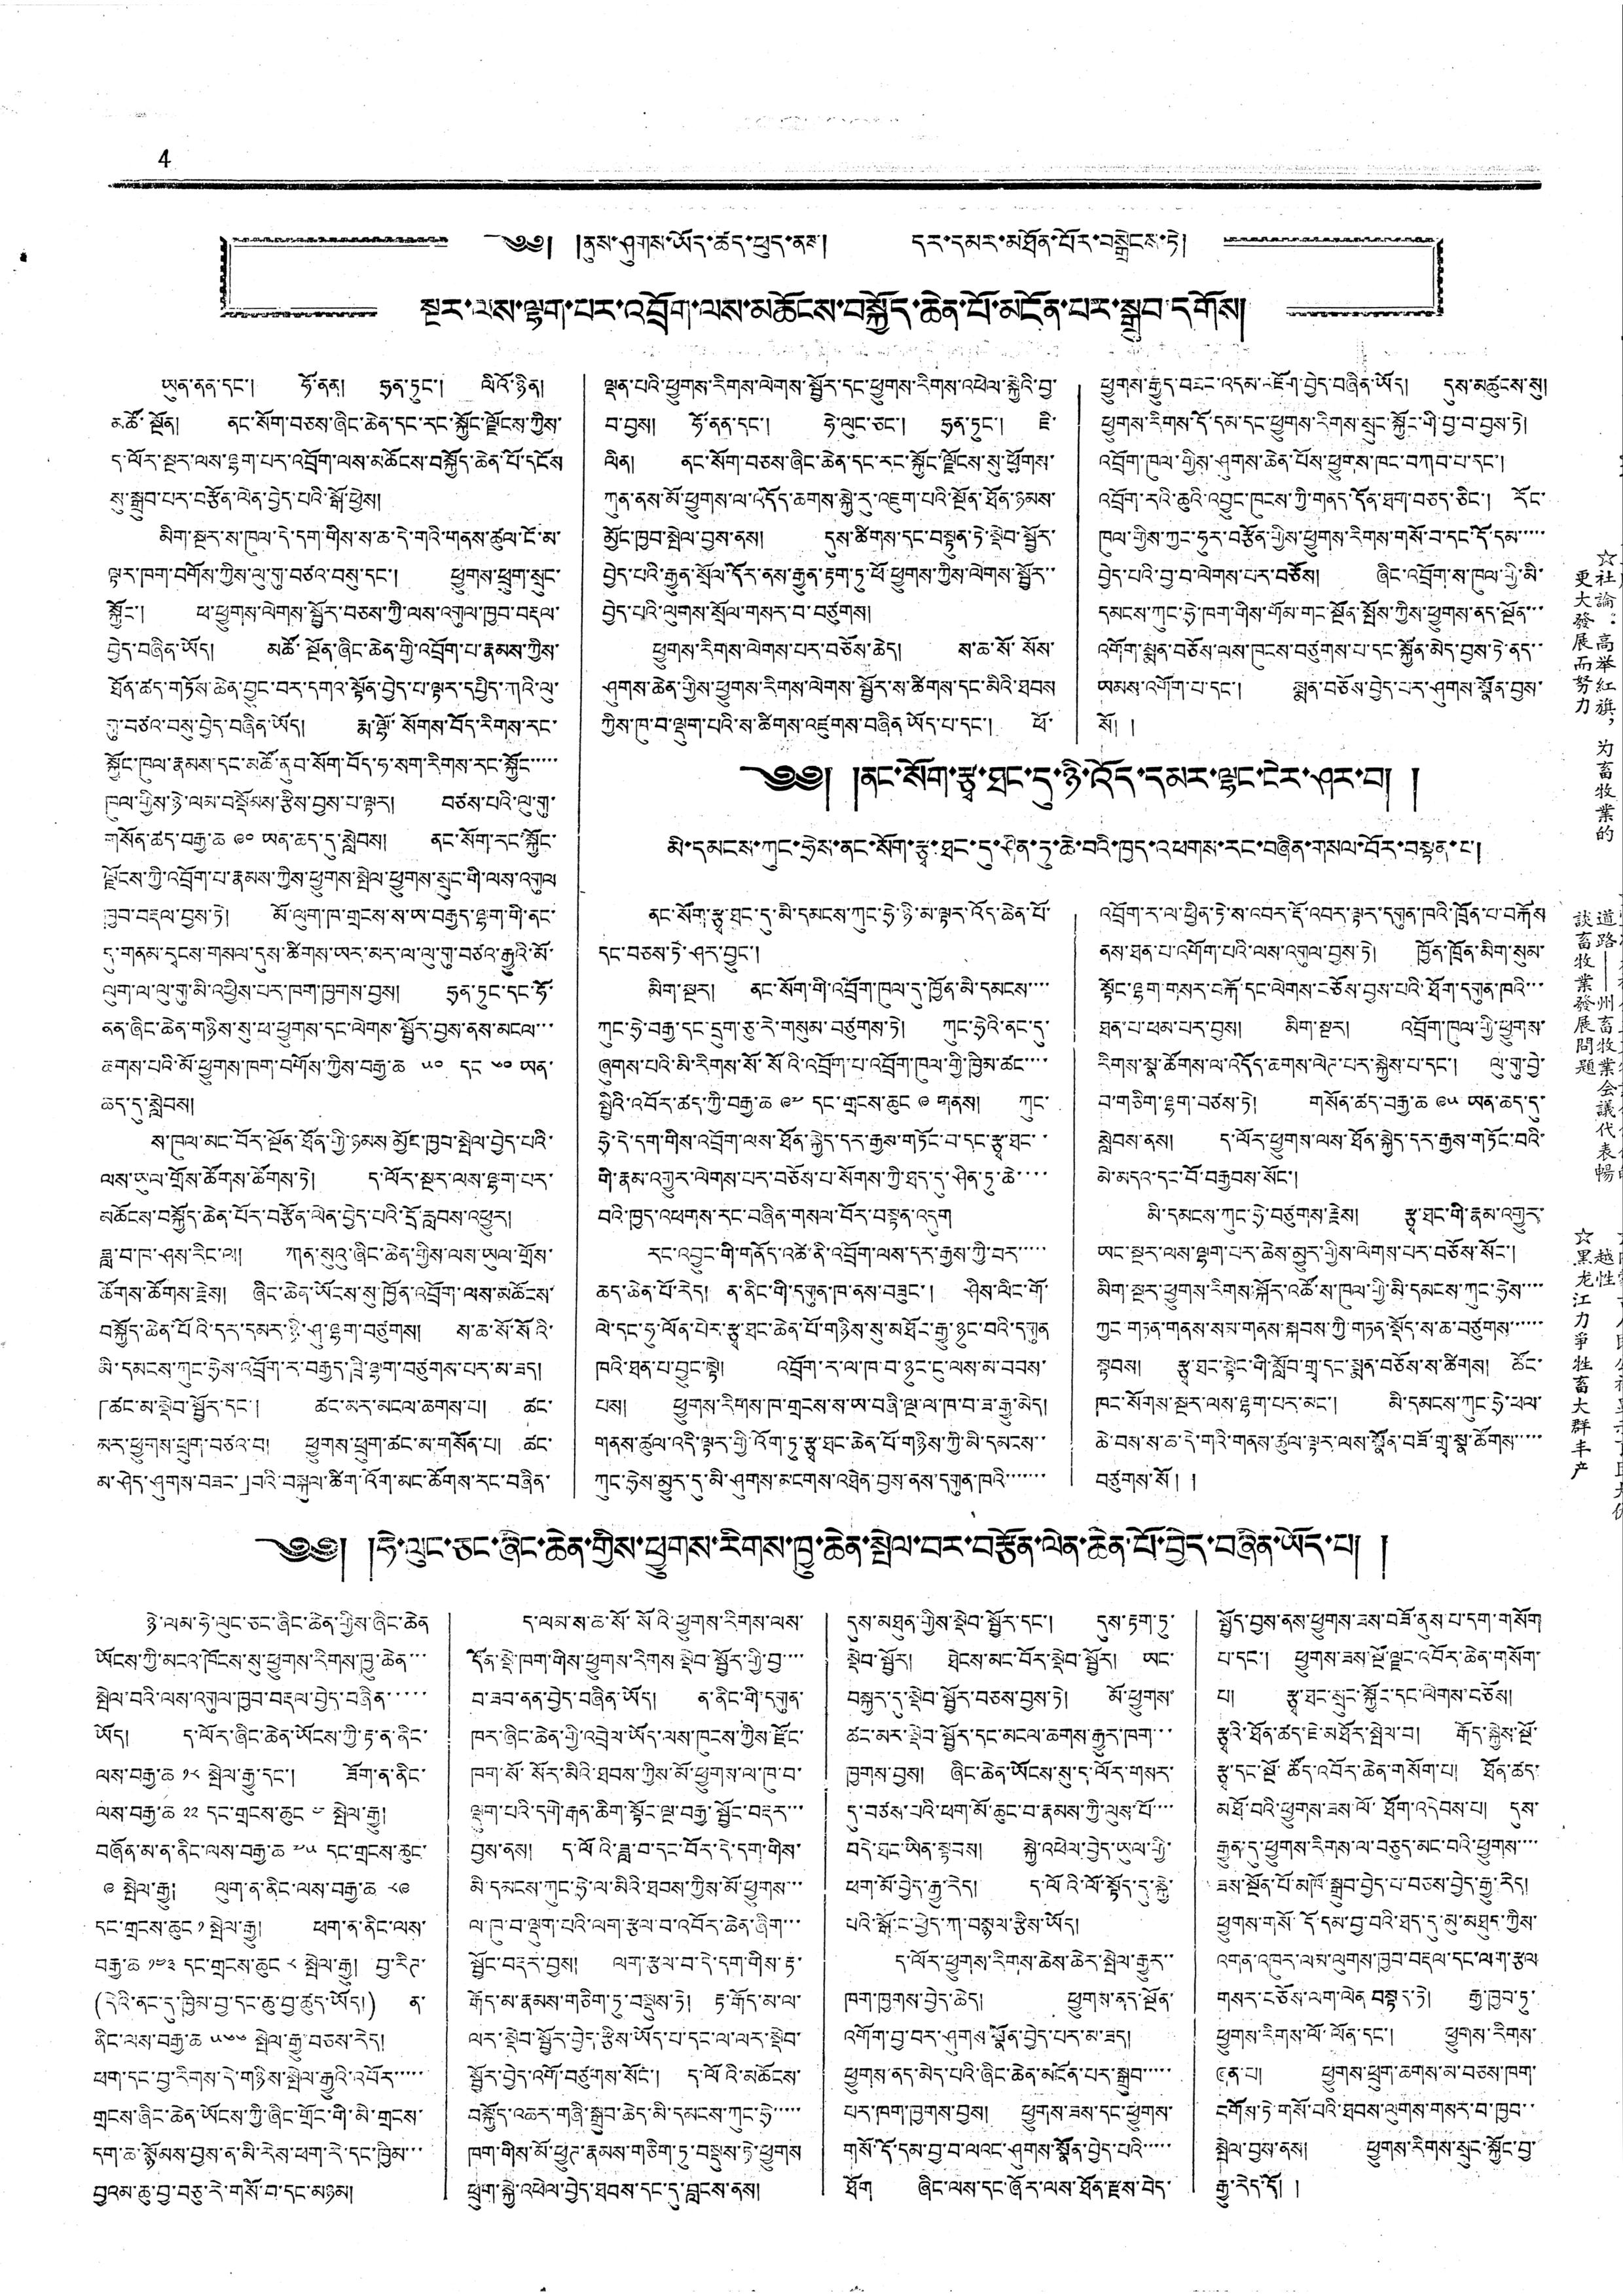4
༄༅། །ནུས་ཤུགས་ཡོད་ཚད་ཕུད་ནས། དར་དམར་མཐོན་པོར་བསྒྲེངས་ཏེ།
སྔར་ལས་ལྷག་པར་འབྲོག་ལས་མཆོངས་བསྐྱོད་ཆེན་པོ་མངོན་པར་སྒྲུབ་དགོས།
ཡུན་ནན་དང་། ཧོ་ནན། ཧྲན་ཏུང་། ལིའོ་ཉིན།
མཚོ་སྔོན། ནང་སོག་བཅས་ཞིང་ཆེན་དང་རང་སྐྱོང་ལྗོངས་ཀྱིས་
ད་ལོར་སྔར་ལས་ལྷག་པར་འབྲོག་ལས་མཆོངས་བསྐྱོད་ཆེན་པོ་དངོས
སུ་སྒྲུབ་པར་བརྩོན་ལེན་བྱེད་པའི་སྒོ་ཕྱེས།
མིག་སྔར་ས་ཁུལ་དེ་དག་གིས་ས་ཆ་དེ་གའི་གནས་ཚུལ་ངོ་མ་
ལྟར་ཁག་བགོས་ཀྱིས་ལུ་གུ་བཙའ་བསུ་དང་། ཕྱུགས་ཕྲུག་སྲུང་
སྐྱོང་། ཕ་ཕྱུགས་ལེགས་སྦྱོར་བཅས་ཀྱི་ལས་འགུལ་ཁྱབ་བརྡལ་
བྱེད་བཞིན་ཡོད། མཚོ་སྔོན་ཞིང་ཆེན་གྱི་འབྲོག་པ་རྣམས་ཀྱིས་
ཐོན་ཚད་གཏོས་ཆེན་བྱུང་བར་དགའ་སྟོན་བྱེད་པ་ལྟར་དཔྱིད་ཀའི་ལུ་
ཀུ་བཙའ་བསུ་བྱེད་བཞིན་ཡོད། རྨ་ལྷོ་སོགས་བོད་རིགས་རང་
སྐྱོང་ཁུལ་རྣམས་དང་མཚོ་ནུབ་སོག་བོད་ཧ་སག་རིགས་རང་སྐྱོང་་་་་
ཁུལ་གྱིས་ཉེ་ལམ་བསྡོམས་རྩིས་བྱས་པ་ལྟར། བཙས་པའི་ལུ་གུ་
གསོན་ཚད་བརྒྱ་ཆ ༩༠ ཡན་ཆད་དུ་སླེབས། ནང་སོགས་རང་སྐྱོང་
ལྗོངས་ཀྱི་འབྲོག་པ་རྣམས་ཀྱིས་ཕྱུགས་སྤེལ་ཕྱུགས་སྲུང་གི་ལས་འགུལ
ཁྱབ་བརྡལ་བྱས་ཏེ། མོ་ལུག་ཁ་གྲངས་ས་ཡ་བརྒྱད་ལྷག་གི་ནང་
དུ་གནས་དྭངས་གསལ་དུས་ཚིགས་ཡར་མར་ལ་ལུ་གུ་བཙའ་རྒྱུའི་མོ་
ལུག་ལ་ལུ་གུ་མི་འཕྱིས་པར་ཁག་ཁྱགས་བྱས། ཧྲན་ཏུང་དང་ཧོ་
ནན་ཞིང་ཆེན་གཉིས་སུ་ཕ་ཕྱུགས་དང་ལེགས་སྦྱོར་བྱས་ནས་མངལ་་་
ཆགས་པའི་མོ་ཕྱུགས་ཁག་བགོས་ཀྱིས་བརྒྱ་ཆ ༥༠ དང ༦༠ ཡན་
ཆད་དུ་སླེབས།
ས་ཁུལ་མང་བོར་སྔོན་ཐོན་གྱི་ཉམས་མྱོང་ཁྱབ་སྤེལ་བྱེད་པའི་
ལས་ཡུལ་གྲོས་ཚོགས་ཚོགས་ཏེ། ད་ལོར་སྔར་ལས་ལྷག་པར་
མཆོངས་བསྐྱོད་ཆེན་པོར་བརྩོན་ལེན་བྱེད་པའི་དྲོ་རླབས་འཕྱུར།
ཟླ་བ་ཁ་ཤས་རིང་ལ། ཀན་སུའུ་ཞིང་ཆེན་གྱིས་ལས་ཡུལ་གྲོས་
ཚོགས་ཚོགས་རྗེས། ཞིང་ཆེན་ཡོངས་སུ་ཁྱོན་འབྲོག་ལས་མཆོངས་
བསྐྱོད་ཆེན་པོའི་དར་དམར་ཉི་ཤུ་ལྷག་བཙུགས། ས་ཆ་སོ་སོའི་
མི་དམངས་ཀུང་ཧྲེས་འབྲོག་ར་བརྒྱད་ཁྲི་ལྷག་བཙུགས་པར་མ་ཟད།
「ཚང་མ་སྡེབ་སྦྱོར་དང་། ཚང་མར་མངལ་ཆགས་པ། ཚང་
མར་ཕྱུགས་ཕྲུག་བཙའ་བ། ཕྱུགས་ཕྲུག་ཚང་མ་གསོན་པ། ཚང་
མ་ཤེད་ཤུགས་བཟང་」བའི་བསྐུལ་ཚིག་འོག་མང་ཚོགས་རང་བཞིན་
ལྡན་པའི་ཕྱུགས་རིགས་ལེགས་སྦྱོར་དང་ཕྱུགས་རིགས་འཕེལ་སྐྱེའི་བྱ་
བ་བྱས། ཧོ་ནན་དང་། ཧེ་ལུང་ཅང་། ཧྲན་ཏུང་། ཇི་
ལིན། ནང་སོགས་བཅས་ཞིང་ཆེན་དང་རང་སྐྱོང་ལྗོངས་སུ་ཕྱུགས་
ཀུན་ནས་མོ་ཕྱུགས་ལ་འདོད་ཆགས་སྐྱེ་རུ་འཇུག་པའི་སྔོན་ཐོན་ཉམས་
མྱོང་ཁྱབ་སྤེལ་བྱས་ནས། དུས་ཚིགས་དང་བསྟུན་ཏེ་སྡེབ་སྦྱོར་
བྱེད་པའི་རྒྱུན་སྲོལ་དོར་ནས་རྒྱུན་རྟག་ཏུ་ཕོ་ཕྱུགས་ཀྱིས་ལེགས་སྦྱོར་་
བྱེད་པའི་ལུགས་སྲོལ་གསར་བ་བཙུགས།
ཕྱུགས་རིགས་ལེགས་པར་བཅོས་ཆེད། ས་ཆ་སོ་སོས་
ཤུགས་ཆེན་གྱིས་ཕྱུགས་རིགས་ལེགས་སྦྱོར་ས་ཚིགས་དང་མིའི་ཐབས
ཀྱིས་ཁུ་བ་ལྡུག་པའི་ས་ཚིགས་འཛུགས་བཞིན ཡོད་པ་དང་། ཕོ་
ཕྱུགས་རྒྱུད་བཟང་འདམ་འཇོག་བྱེད་བཞིན་ཡོད། དུས་མཚུངས་སུ།
ཕྱུགས་རིགས་དོ་དམ་དང་ཕྱུགས་རིགས་སྲུང་སྐྱོང་གི་བྱ་བ་བྱས་ཏེ།
འབྲོག་ཁུལ་གྱིས་ཤུགས་ཆེན་པོས་ཕྱུགས་ཁང་བཀབ་པ་དང་།
འབྲོག་རའི་ཆུའི་འབྱུང་ཁུངས་ཀྱི་གནད་དོན་ཐག་བཅད་ཅིང་། རོང་
ཁུལ་གྱིས་ཀྱང་ཧུར་བརྩོན་གྱིས་ཕྱུགས་རིགས་གསོ་བ་དང་དོ་དམ་་་་་
བྱེད་པའི་བྱ་བ་ལེགས་པར་བཅོས། ཞིང་འབྲོག་ས་ཁུལ་གྱི་མི་
དམངས་ཀུང་ཧྲེ་ཁག་གིས་གོམ་གང་སྔོན་སྤོས་ཀྱིས་ཕྱུགས་ནད་སྔོན་་་
འགོག་སྨན་བཅོས་ལས་ཁུངས་བཙུགས་པ་དང་སྐྱོན་མེད་བྱས་ཏེ་ནད་་
ཡམས་འགོག་པ་དང་། སྨན་བཅོས་བྱེད་པར་ཤུགས་སྣོན་བྱས་
སོ། །
༄༅། །ནང་སོག་རྩྭ་ཐང་དུ་ཉི་འོད་དམར་ལྷང་ངེར་ཤར་བ། །
མི་དམངས་ཀུང་ཧྲེས་ནང་སོག་རྩྭ་ཐང་དུ་ཤིན་ཏུ་ཆེ་བའི་ཁྱད་འཕགས་རང་བཞིན་གསལ་བོར་བསྟན་པ།
ནང་སོག་རྩྭ་ཐང་དུ་མི་དམངས་ཀུང་ཧྲེ་ཉི་མ་ལྟར་འོད་ཆེན་པོ་
དང་བཅས་ཏེ་ཤར་བྱུང་།
མིག་སྔར། ནང་སོག་གི་འབྲོག་ཁུལ་དུ་ཁྱོན་མི་དམངས་་་་
ཀུང་ཧྲེ་བརྒྱ་དང་དྲུག་ཅུ་རེ་གསུམ་བཙུགས་ཏེ། ཀུང་ཧྲེའི་ནང་དུ་
ཞུགས་པའི་མི་རིགས་སོ་སོའི་འབྲོག་པ་འབྲོག་ཁུལ་གྱི་ཁྱིམ་ཚང་་་་
སྤྱིའི་འབོར་ཚད་ཀྱི་བརྒྱ་ཆ ༩༧ དང་གྲངས་ཆུང ༩ གནས། ཀུང་
ཧྲེ་དེ་དག་གིས་འབྲོག་ལས་ཐོན་སྐྱེད་དར་རྒྱས་གཏོང་བ་དང་རྩྭ་ཐང་་
གི་རྣམ་འགྱུར་ལེགས་པར་བཅོས་པ་སོགས་ཀྱི་ཐད་དུ་ཤིན་ཏུ་ཆེ་་་་
བའི་ཁྱད་འཕགས་རང་བཞིན་གསལ་བོར་བསྟན་འདུག
རང་འབྱུང་གི་གནོད་འཚེ་ནི་འབྲོག་ལས་དར་རྒྱས་ཀྱི་བར་་་་་
ཆད་ཆེན་པོ་རེད། ན་ནིང་གི་དགུན་ཁ་ནས་བཟུང་། ཤིས་ལིང་གོ་
ལེ་དང་ཧུ་ལོན་པེར་རྩྭ་ཐང་ཆེན་པོ་གཉིས་སུ་མཐོང་རྒྱུ་ཉུང་བའི་དགུན
ཁའི་ཐན་པ་བྱུང་སྟེ། འབྲོག་ར་ལ་ཁ་བ་ཉུང་ངུ་ལས་མ་བབས་
པས། ཕྱུགས་རིགས་ཁ་གྲངས་ས་ཡ་བཞི་ལྔ་ལ་ཁ་བ་ཟ་རྒྱུ་མེད།
གནས་ཚུལ་འདི་ལྟར་གྱི་འོག་ཏུ་རྩྭ་ཐང་ཆེན་པོ་གཉིས་ཀྱི་མི་དམངས་་
ཀུང་ཧྲེས་མྱུར་དུ་མི་ཤུགས་མངགས་འཐེན་བྱས་ནས་དགུན་ཁའི་་་་་་་
འབྲོག་ར་ལ་ཕྱིན་ཏེ་ས་འབར་རྡོ་འབར་ལྟར་དགུན་ཁའི་ཁྲོན་པ་བརྐོས
ནས་ཐན་པ་འགོག་པའི་ལས་འགུལ་བྱས་ཏེ། ཁྱོན་ཁྲོན་མིག་སུམ་
སྟོང་ལྷག་གསར་བརྐོ་དང་ལེགས་བཅོས་བྱས་པའི་ཐོག་དགུན་ཁའི་་་
ཐན་པ་ཕམ་པར་བྱས། མིག་སྔར། འབྲོག་ཁུལ་གྱི་ཕྱུགས་
རིགས་སྣ་ཚོགས་འདོད་ཆགས་ལེཊ་པར་སྐྱས་པ་དང་། ལུ་གུ་བྱེ་
བ་གཅིག་ལྷག་བཙས་ཏེ། གསོན་ཚད་བརྒྱ་ཆ ༩༥ ཡན་ཆད་དུ་
སླེབས་ནས། ད་ལོར་ཕྱུགས་ལས་ཐོན་སྐྱེད་དར་རྒྱས་གཏོང་བའི་
མེ་མདའ་དང་བོ་བརྒྱབས་སོང་།
མི་དམངས་ཀུང་ཧྲེ་བཙུགས་རྗེས། རྩྭ་ཐང་གི་རྣམ་འགྱུར་
ཡང་སྔར་ལས་ལྷག་པར་ཆེས་མྱུར་གྱིས་ལེགས་པར་བཅོས་སོང་།
མིག་སྔར་ཕྱུགས་རིགས་སྐོར་འཚོ་ས་ཁུལ་གྱི་མི་དམངས་ཀུང་ཧྲེས་་་་
ཀྱང་གཏན་གནས་སམ་གནས་སྐབས་ཀྱི་གཏན་སྡོད་ས་ཆ་བཙུགས་་་་་་
སྟབས། རྩྭ་ཐང་སྟེང་གི་སློབ་གྲྭ་དང་སྨན་བཅོས་ས་ཚིགས། ཚོང་
ཁང་སོགས་སྔར་ལས་ལྷག་པར་མང་། མི་དམངས་ཀུང་ཧྲེ་ཕལ་
ཆེ་བས་ས་ཆ་དེ་གའི་གནས་ཚུལ་ལྟར་ལས་སྣོན་བཟོ་གྲྭ་སྣ་ཚོགས་་་་་
བཙུགས་སོ། །
༄༅། །ཧེ་ལུང་ཅང་ཞིང་ཆེན་གྱིས་ཕྱུགས་རིསྒ་ཁྱུ་ཆེན་སྤེལ་བར་བརྩོན་ལེན་ཆེན་པོ་བྱེད་བཞིན་ཡོད་པ། །
ཉེ་ལམ་ཧེ་ལུང་ཅང་ཞིང་ཆེན་གྱིས་ཞིང་ཆེན
ཡོངས་ཀྱི་མངའ་ཁོངས་སུ་ཕྱུགས་རིགས་ཁྱུ་ཆེན་་་
སྤེལ་བའི་ལས་འགུལ་ཁྱབ་བརྡལ་བྱེད་བཞིན་་་་་
ཡོད། ད་ལོར་ཞིང་ཆེན་ཡོངས་ཀྱི་རྟ་ན་ནིང་
ལས་བརྒྱ་ཆ ༡༨ སྤེལ་རྒྱུ་དང་། ཟོག་ན་ནིང་
ལས་བརྒྱ་ཆ ༢༢ དང་གྲངས་ཆུང ༤ སྤེལ་རྒྱུ།
བཞོན་མ་ན་ནིང་ལས་བརྒྱ་ཆ ༧༥ དང་གྲངས་ཆུང་
༩ སྤེལ་རྒྱུ། ལུག་ན་ནིང་ལས་བརྒྱ་ཆ ༨༩
དང་གྲངས་ཆུང ༡ སྤེལ་རྒྱུ། ཕག་ན་ནིང་ལས་
བརྒྱ་ཆ ༡༤༣ དང་གྲངས་ཆུང ༨ སྤེལ་རྒྱུ། བྱ་རིཊ་
(དེའི་ནང་དུ་ཁྱིམ་བྱ་དང་ཆུ་བྱ་ཚུད་ཡོད།) ན་
ནིང་ལས་བརྒྱ་ཆ ༥༦༦ སྤེལ་རྒྱུ་བཅས་རེད།
ཕག་དང་བྱ་རིགས་དེ་གཉིས་སྤེལ་རྒྱུའི་འབོར་་་་་
གྲངས་ཞིང་ཆེན་ཡོངས་ཀྱི་ཞིང་གྲོང་གི་མི་གྲངས་
དག་ཆ་སྙོམས་བྱས་ན་མི་རེས་ཕག་རེ་དང་ཁྱིམ་་་
བྱའམ་ཆུ་བྱ་བཅུ་རེ་གསོ་བ་དང་མཉམ།
ད་ལམ་ས་ཆ་སོ་སོའི་ཕྱུགས་རིགས་ལས་
དོན་སྡེ་ཁག་གིས་ཕྱུགས་རིགས སྡེབ་སྦྱོར་གྱི་བྱ་་་་
བ་ཟབ་ནན་བྱེད་བཞིན་ཡོད། ན་ནིང་གི་དགུན་
ཁར་ཞིང་ཆེན་གྱི་འབྲེལ་ཡོད་ལས་ཁུངས་ཀྱིས་རྫོང་
ཁག་སོ་སོར་མིའི་ཐབས་ཀྱིས་མོ་ཕྱུགས་ལ་ཁུ་བ་
ལྡུག་པའི་དགེ་རྒན་ཆིག་སྟོང་ལྔ་བརྒྱ་སྦྱོང་བརྡར་་་
བྱས་ནས། ད་ལོའི་ཟླ་བ་དང་བོར་དེ་དག་གིས་
མི་དམངས་ཀུང་ཧྲེ་ལ་མིའི་ཐབས་ཀྱིས་མོ་ཕྱུགས་་་
ལ་ཁུ་བ་ལྡུག་པའི་ལག་རྩལ་བ་འབོར་ཆེན་ཞིག་་་
སྦྱོང་བརྡར་བྱས། ལག་རྩལ་བ་དེ་དག་གིས་རྟ་
རྒོད་མ་རྣམས་གཅིག་ཏུ་བསྡུས་ཏེ། རྟ་རྒོད་མ་ལ་
ལར་སྡེབ་སྦྱོར་བྱེད་རྩིས་ཡོད་པ་དང་ལ་ལར་སྡེབ་
སྦྱོར་བྱེད་འགོ་བཙུགས་སོང་། ད་ལོའི་མཆོངས་
བསྐྱོད་འཆར་གཞི་སྒྲུབ་ཆེད་མི་དམངས་ཀུང་ཧྲེ་་་་་
ཁག་གིས་མོ་ཕྱུཊ་རྣམས་གཅིག་ཏུ་བསྡུས་ཏེ་ཕྱུགས
ཕྲུག་སྐྱེ་འཕེལ་བྱེད་ཐབས་དང་དུ་བླངས་ནས།
དུས་མཐུན་གྱིས་སྡེབ་སྦྱོར་དང་། དུས་རྟག་ཏུ་
སྡེབ་སྦྱོར། ཐེངས་མང་བོར་སྡེབ་སྦྱོར། ཡང་
བསྐྱར་དུ་སྡེབ་སྦྱོར་བཅས་བྱས་ཏེ། མོ་ཕྱུགས་
ཚང་མར་སྡེབ་སྦྱོར་དང་མངལ་ཆགས་རྒྱུར་ཁག་་་
ཁྱགས་བྱས། ཞིང་ཆེན་ཡོངས་སུ་ད་ལོར་གསར་
དུ་བཙས་པའི་ཕག་མོ་ཆུང་བ་རྣམས་ཀྱི་ལུས་པོ་་་་
བདེ་ཐང་ཡིན་སྟབས། སྐྱེ་འཕེལ་བྱེད་ཡུལ་གྱི་
ཕག་མོ་བྱེད་རྒྱུ་རེད། ད་ལོའི་ལོ་སྟོད་དུ་སྐྱེ་
པའི་སྒོ་ང་ཕྱེད་ཀ་བསྙལ་རྩིས་ཡོད།
ད་ལོར་ཕྱུགས་རིགས་ཆེས་ཆེར་སྤེལ་རྒྱུར་་
ཁག་ཁྱགས་བྱེད་ཆེད། ཕྱུགས་ནད་སྔོན་
འགོག་བྱ་བར་ཤུགས་སྣོན་བྱེད་པར་མ་ཟད།
ཕྱུགས་ནད་མེད་པའི་ཞིང་ཆེན་མངོན་པར་སྒྲུབ་་་་་
པར་ཁག་ཁྱགས་བྱས། ཕྱུགས་ཟས་དང་ཕྱུགས་
གསོ་དོ་དམ་བྱ་བ་ལའང་ཤུགས་སྣོན་བྱེད་པའི་་་་་
ཐོག ཞིང་ལས་དང་ཞོར་ལས་ཐོན་རྫས་བེད་
སྤྱོད་བྱས་ནས་ཕྱུགས་ཟས་བཟོ་ནུས་པ་དག་གསོག
པ་དང་། ཕྱུགས་ཟས་སྔོ་ལྗང་འབོར་ཆེན་གསོག་
པ། རྩྭ་ཐང་སྲུང་སྐྱོང་དང་ལེགས་བཅོས།
རྩྭའི་ཐོན་ཚད་ཇེ་མཐོར་སྤེལ་བ། རྒོད་སྐྱེས་སྔོ་
རྩྭ་དང་སྔོ་ཚོད་འབོར་ཆེན་གསོག་པ། ཐོན་ཚད་
མཐོ་བའི་ཕྱུགས་ཟས་ལོ་ཐོག་འདེབས་པ། དུས་
རྒྱུན་དུ་ཕྱུགས་རིགས་ལ་བཅུད་མང་བའི་ཕྱུགས་་་་
ཟས་སྔོན་པོ་མཁོ་སྒྲུབ་བྱེད་པ་བཅས་བྱེད་རྒྱུ་རེད།
ཕྱུགས་གསོ་དོ་དམ་བྱ་བའི་ཐད་དུ་མུ་མཐུད་ཀྱིས་
འགན་འཁུར་ལམ་ལུགས་ཁྱབ་བརྡལ་དང་ལག་རྩལ
གསར་བཅོས་ལག་ལེན བསྟད་ཏེ། རྒྱ་ཁྱབ་ཏུ་
ཕྱུགས་རིགས་ལོ་ལོན་དང་། ཕྱུགས་རིགས་
ཞན་པ། ཕྱུགས་ཕྲུག་ཆགས་མ་བཅས་ཁག་
བགོས་ཏེ་གོས་བའི་ཐབས་ལུགས་གསར་བ་ཁྱབ་་
སྤེལ་བྱས་ནས། ཕྱུགས་རིགས་སྲུང་སྐྱོང་བྱ་
རྒྱུ་རེད་དོ། །
☆社論：高举紅旗，为畜牧業的
更大發展而努力
道路——州畜牧業会議代表暢
談畜牧業發展問題
越性
☆黑龙江力爭牲畜大群丰产
